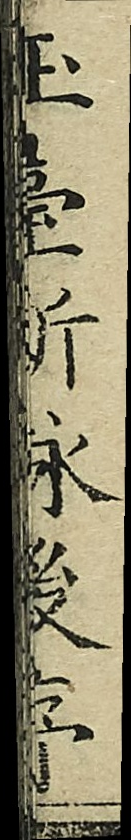玉臺新詠後序
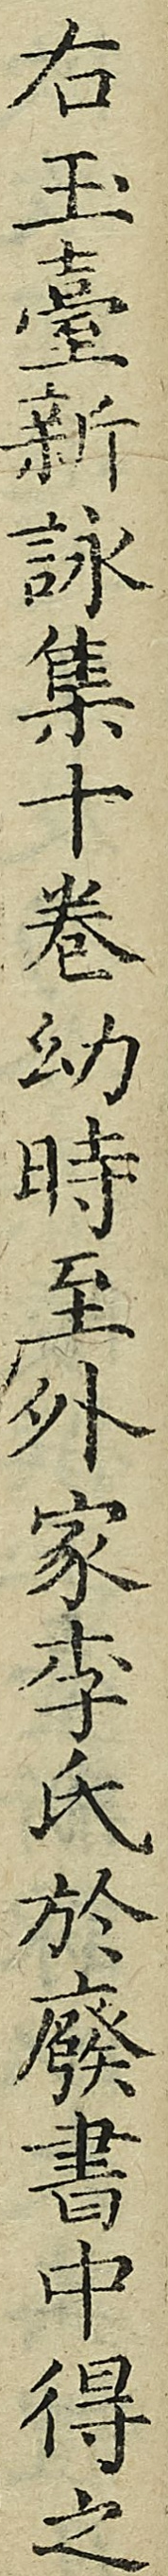右玉臺新詠集十卷幼時至外家李氏於廢書中得之
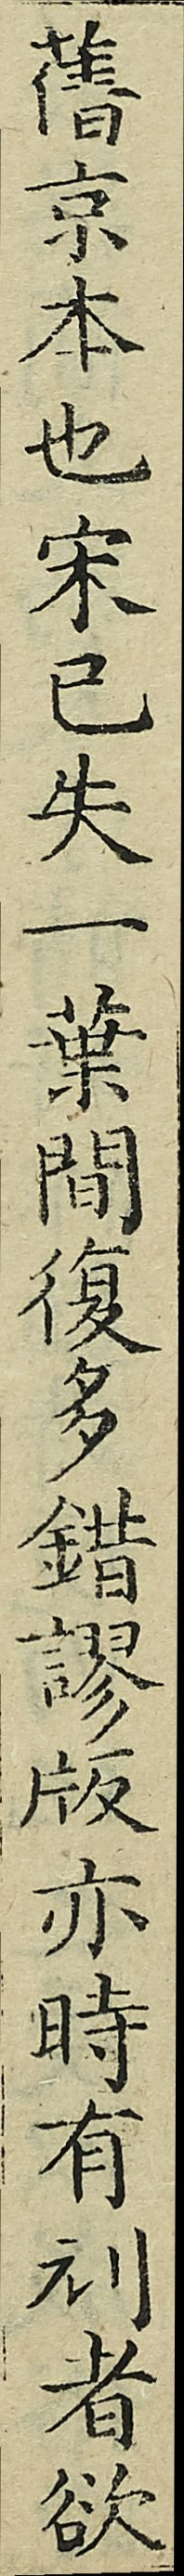舊京本也宋已失一葉間復多錯謬版亦時有刓者欲
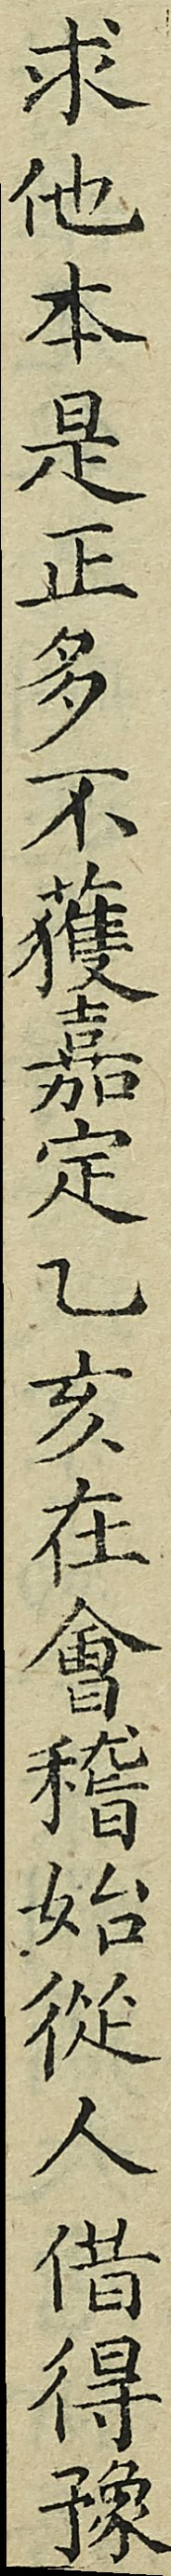求他本是正多不獲嘉定乙亥在會稽始從人借得豫
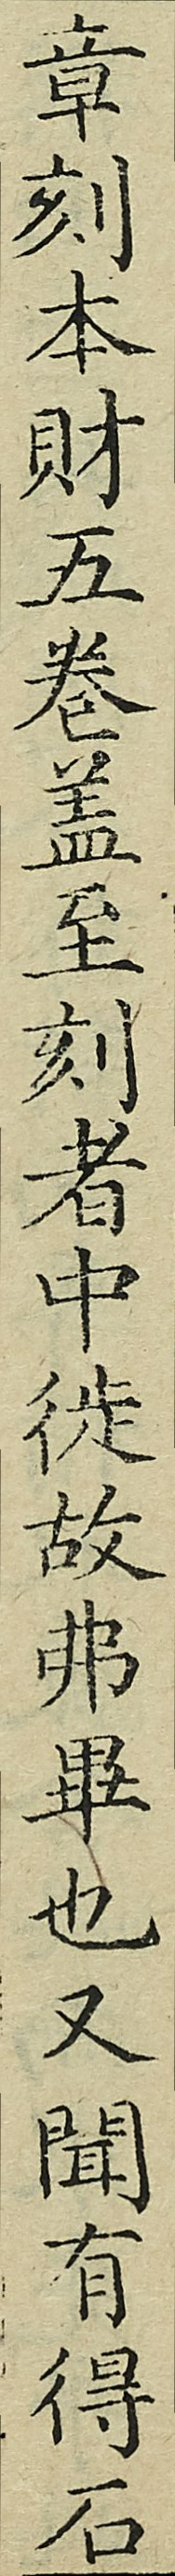章刻本財五巻蓋至刻者中徙故弗畢也又聞有得石
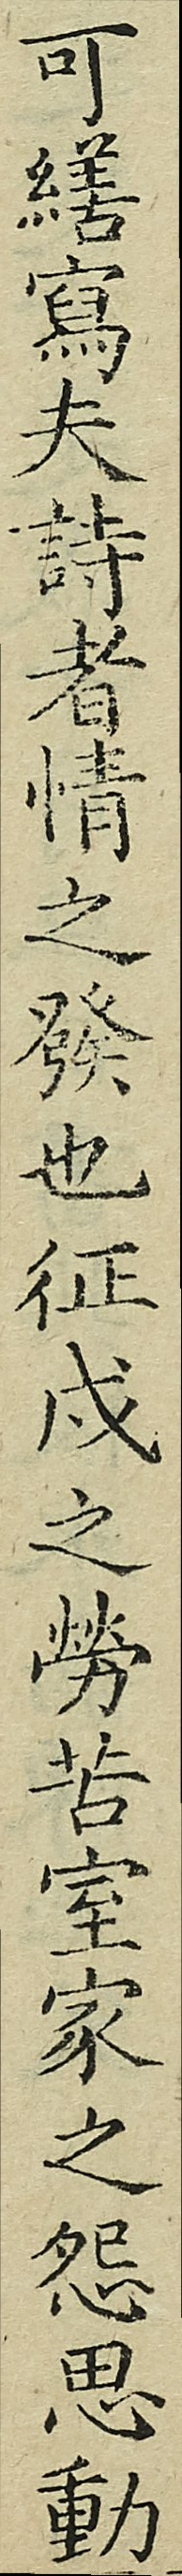可繕寫夫詩者情之發也征戍之勞苦室家之怨思動
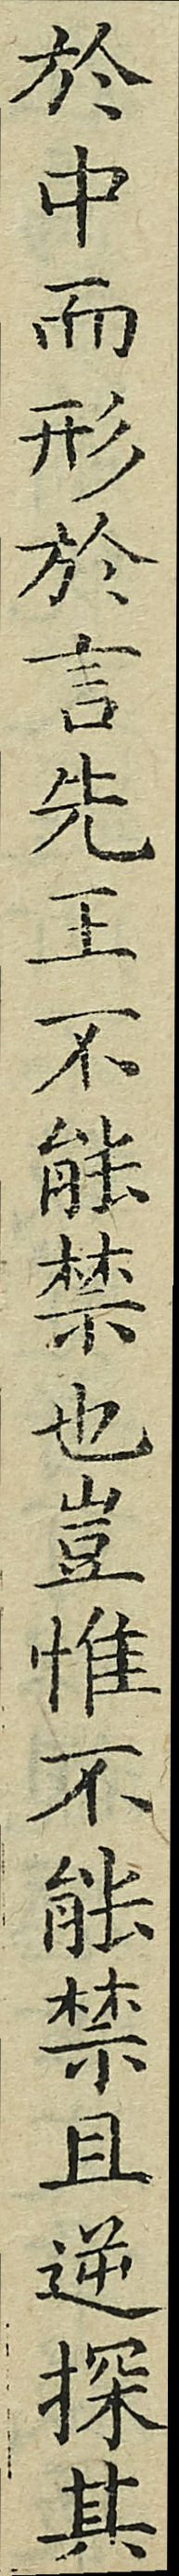於中而形於言先王不能禁也豈惟不能禁且逆探其
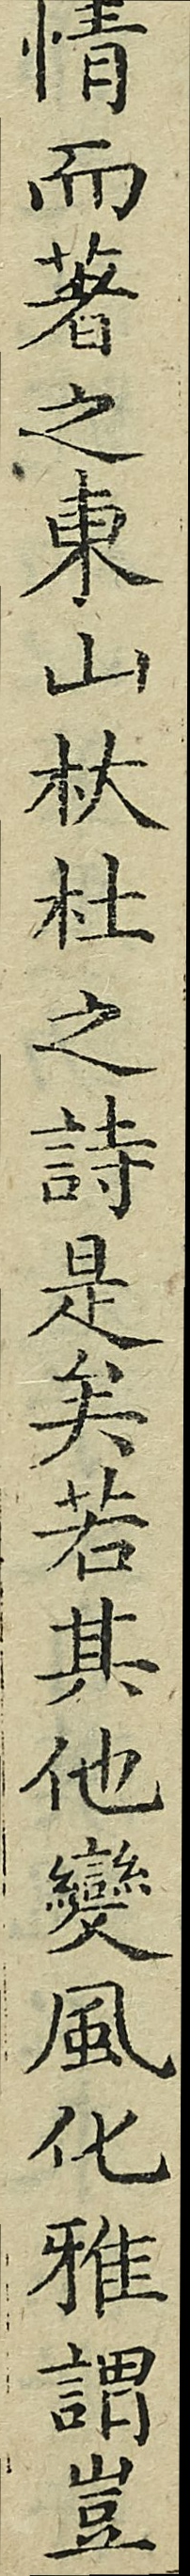情而著之東山杕杜之詩是矣若其他變風化雅謂豈
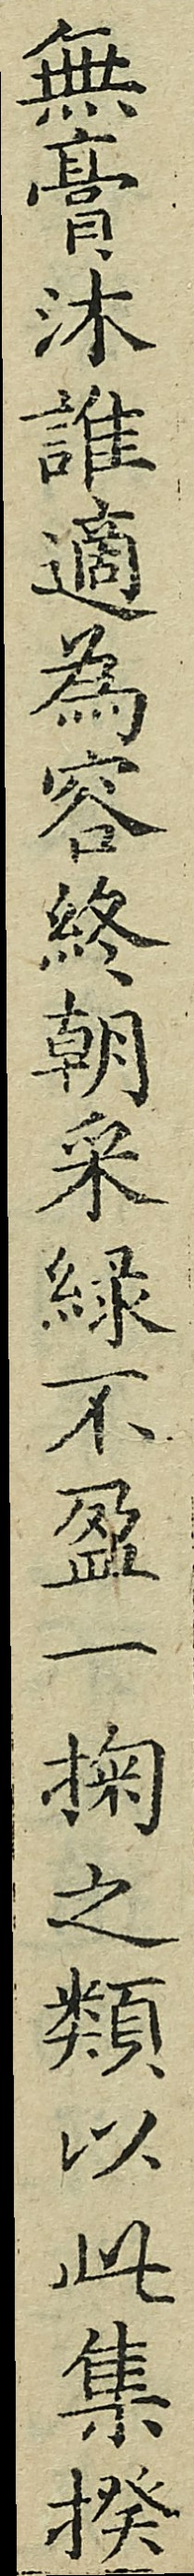無膏沐誰適為容終朝采綠不盈一掬之類以此集揆
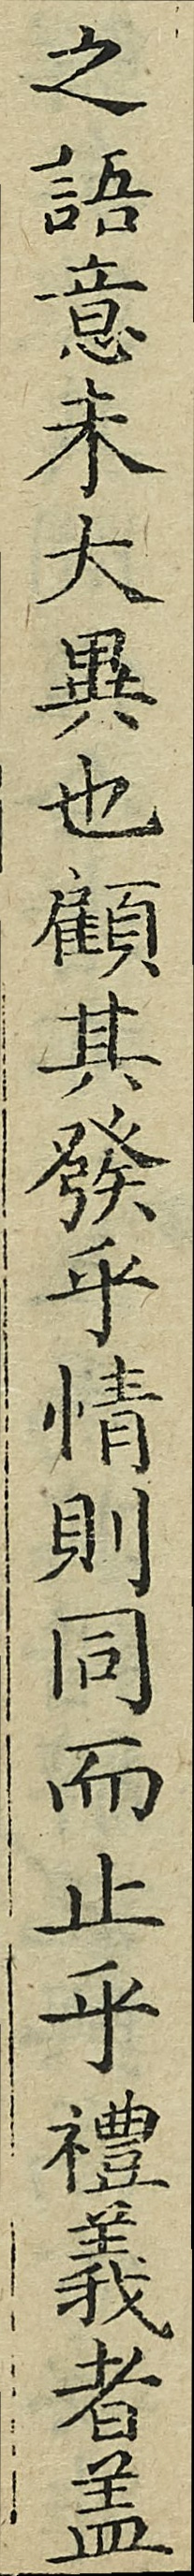之語意未大異也顧其發乎情則同而止乎禮義者蓋
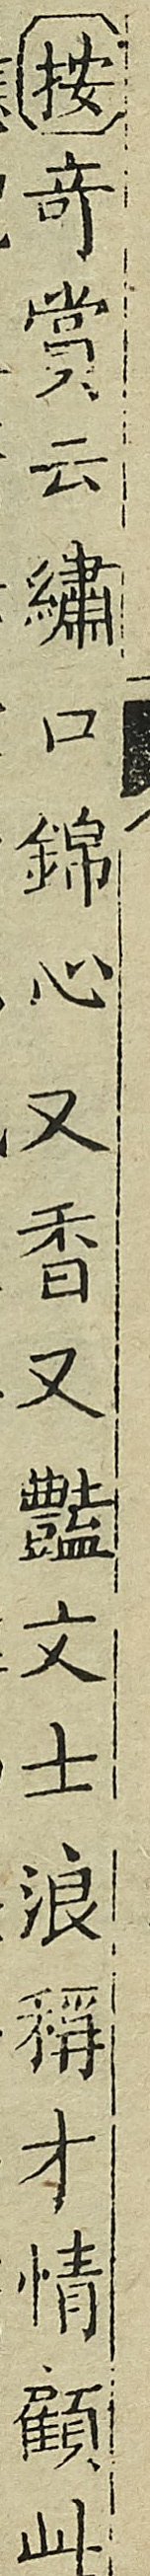（按）奇賞云繡口錦心又香又豔文士浪稱才情顧此
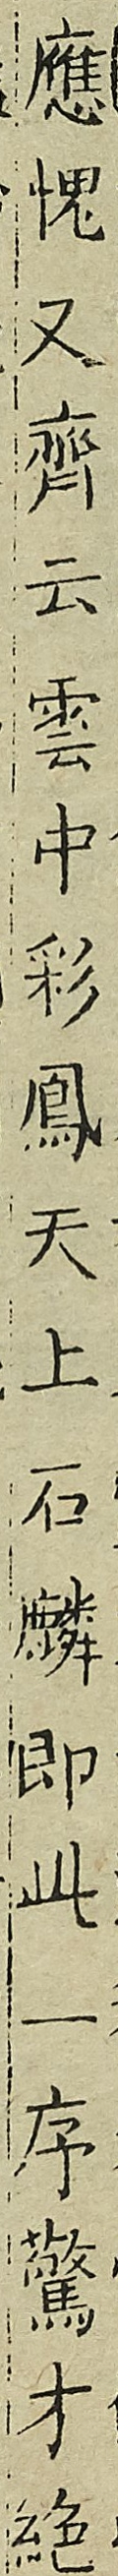應愧又齊云雲中彩鳳天上石麟即此一序驚才絕
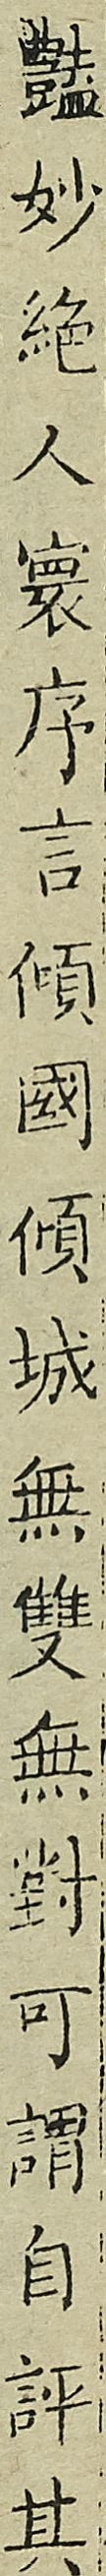豔妙絕人寰序言傾國傾城無雙無對可謂自評其
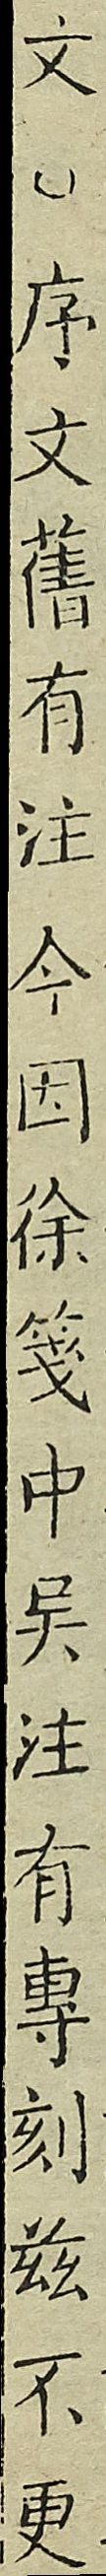文。序文舊有注今因徐笺中吳注有專刻玆不更
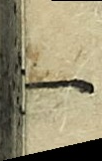一
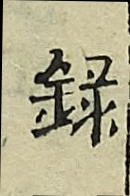錄
